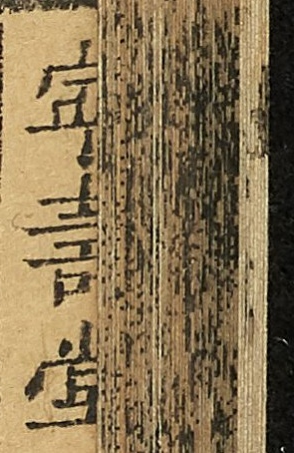寧壽堂
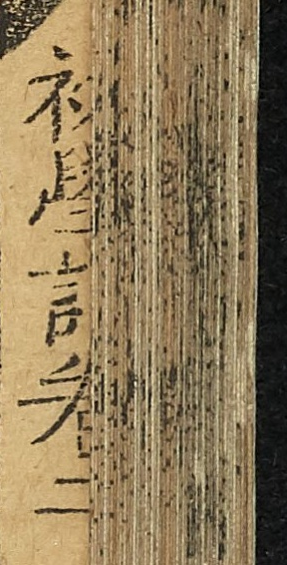初學記卷二
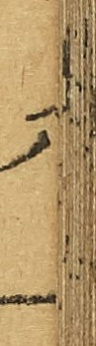八
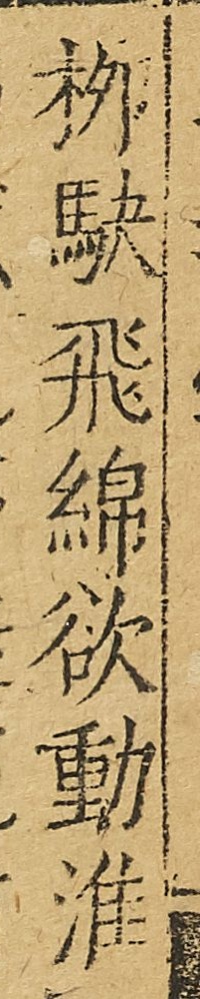柳駛飛綿欲動淮
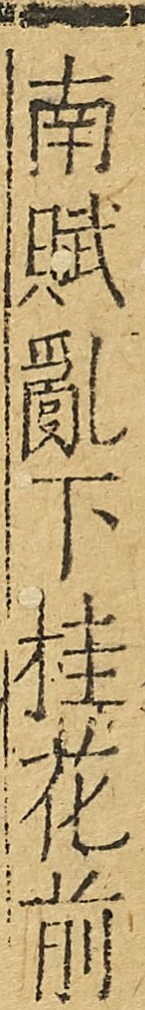南賦亂下桂花前
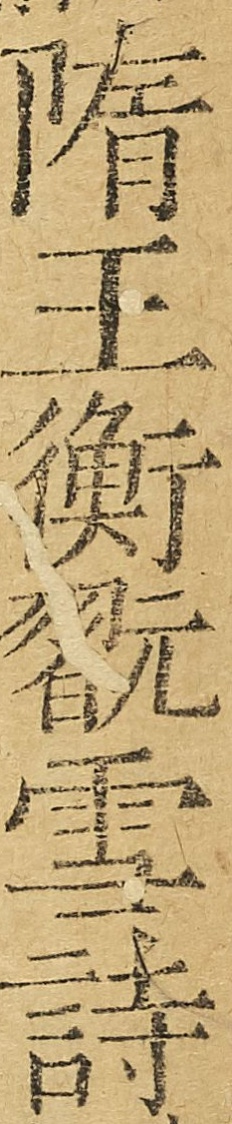隋王衡玩雪詩
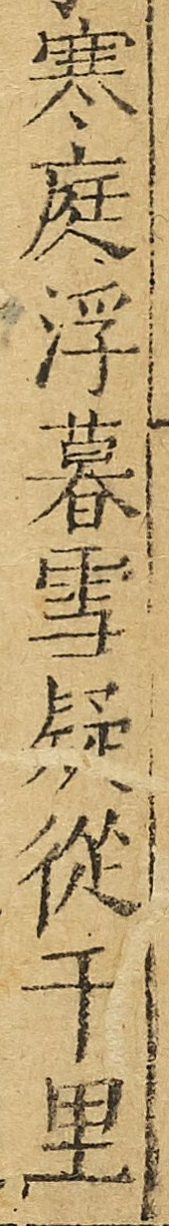寒庭浮暮雪疑從千里
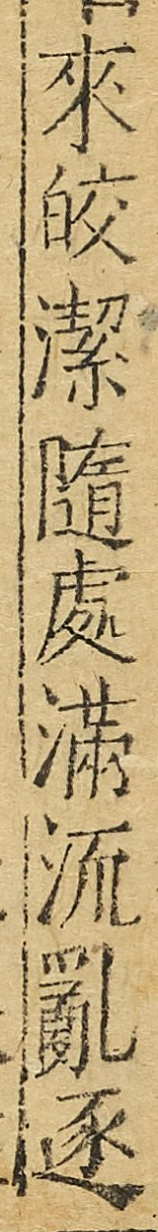來皎潔隨處滿流亂逐
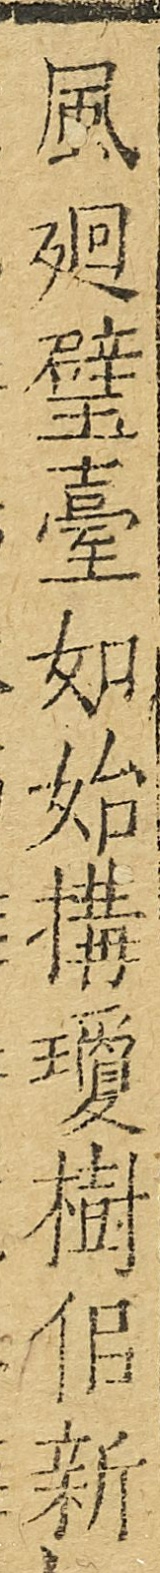風迴璧臺如始搆瓊樹似新
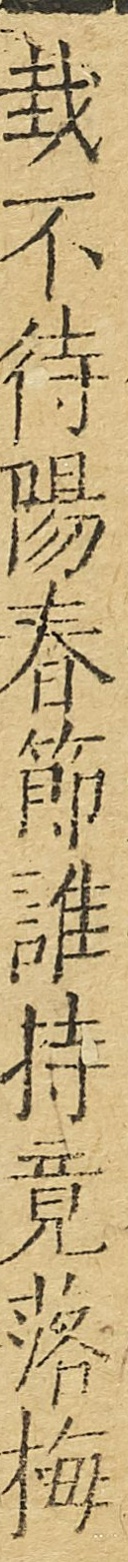栽不待陽春節誰持競落梅
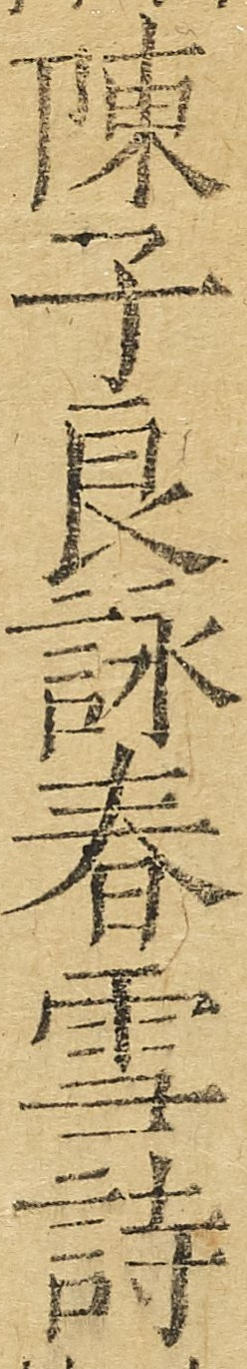陳子良詠春雪詩
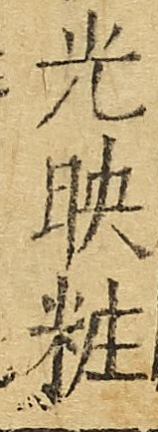光映妝
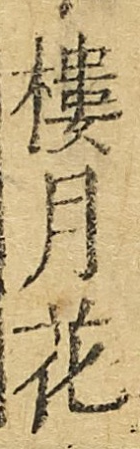樓月花
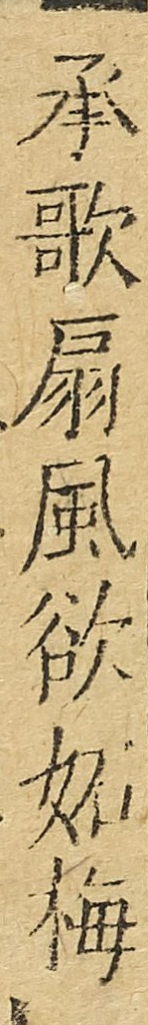承歌扇風欲妬梅
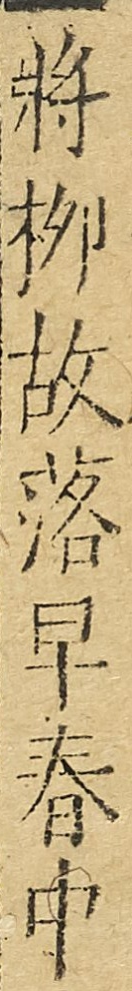將柳故落早春中
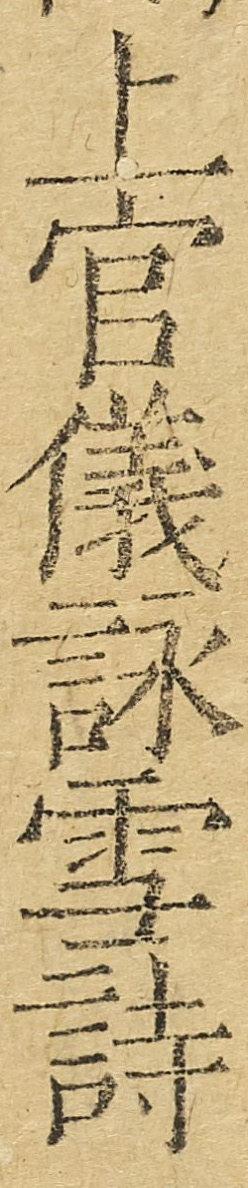上官儀詠雪詩
